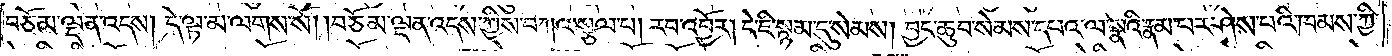བཅོམ་ལྡན་འདས། དེ་ལྟ་མ་ལགས་སོ། །བཅོམ་ལྡན་འདས་ཀྱིས་བཀའ་སྩལ་པ། རབ་འབྱོར། དེ་ཇི་སྙམ་དུ་སེམས། བྱང་ཆུབ་སེམས་དཔའ་ལ་སྣའི་རྣམ་པར་ཤེས་པའི་ཁམས་ཀྱི་
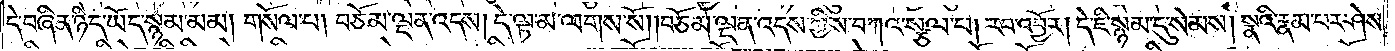དེ་བཞིན་ཉིད་ཡོད་སྙམ་མམ། གསོལ་པ། བཅོམ་ལྡན་འདས། དེ་ལྟ་མ་ལགས་སོ། །བཅོམ་ལྡན་འདས་ཀྱིས་བཀའ་སྩལ་པ། རབ་འབྱོར། དེ་ཇི་སྙམ་དུ་སེམས། སྣའི་རྣམ་པར་ཤེས་
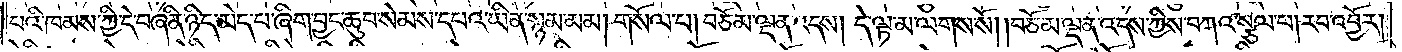པའི་ཁམས་ཀྱི་དེ་བཞིན་ཉིད་མེད་པ་ཞིག་བྱང་ཆུབ་སེམས་དཔའ་ཡིན་སྙམ་མམ། གསོལ་པ། བཅོམ་ལྡན་འདས། དེ་ལྟ་མ་ལགས་སོ། །བཅོམ་ལྡན་འདས་ཀྱིས་བཀའ་སྩལ་པ། རབ་འབྱོར།
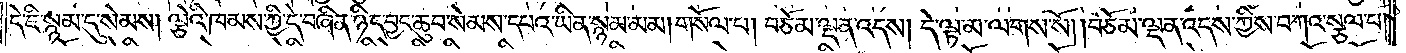དེ་ཇི་སྙམ་དུ་སེམས། ལྕེའི་ཁམས་ཀྱི་དེ་བཞིན་ཉིད་བྱང་ཆུབ་སེམས་དཔའ་ཡིན་སྙམ་མམ། གསོལ་པ། བཅོམ་ལྡན་འདས། དེ་ལྟ་མ་ལགས་སོ། །བཅོམ་ལྡན་འདས་ཀྱིས་བཀའ་སྩལ་པ།
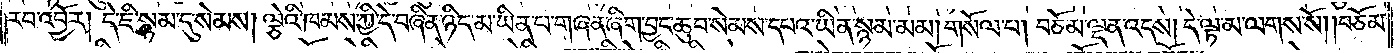རབ་འབྱོར། དེ་ཇི་སྙམ་དུ་སེམས། ལྕེའི་ཁམས་ཀྱི་དེ་བཞིན་ཉིད་མ་ཡིན་པ་གཞན་ཞིག་བྱང་ཆུབ་སེམས་དཔའ་ཡིན་སྙམ་མམ། གསོལ་པ། བཅོམ་ལྡན་འདས། དེ་ལྟ་མ་ལགས་སོ། །བཅོམ་
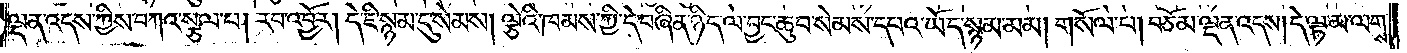ལྡན་འདས་ཀྱིས་བཀའ་སྩལ་པ། རབ་འབྱོར། དེ་ཇི་སྙམ་དུ་སེམས། ལྕེའི་ཁམས་ཀྱི་དེ་བཞིན་ཉིད་ལ་བྱང་ཆུབ་སེམས་དཔའ་ཡོད་སྙམ་མམ། །གསོལ་པ། བཅོམ་ལྡན་འདས། དེ་ལྟ་མ་ལགས་
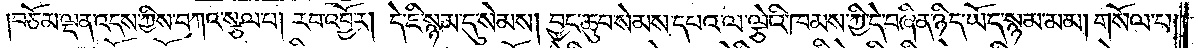བཅོམ་ལྡན་འདས་ཀྱིས་བཀའ་སྩལ་པ། རབ་འབྱོར། དེ་ཇི་སྙམ་དུ་སེམས། བྱང་ཆུབ་སེམས་དཔའ་ལ་ལྕེའི་ཁམས་ཀྱི་དེ་བཞིན་ཉིད་ཡོད་སྙམ་མམ། གསོལ་པ།
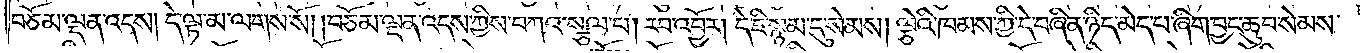བཅོམ་ལྡན་འདས། དེ་ལྟ་མ་ལགས་སོ། །བཅོམ་ལྡན་འདས་ཀྱིས་བཀའ་སྩལ་པ། རབ་འབྱོར། དེ་ཇི་སྙམ་དུ་སེམས། ལྕེའི་ཁམས་ཀྱི་དེ་བཞིན་ཉིད་མེད་པ་ཞིག་བྱང་ཆུབ་སེམས་
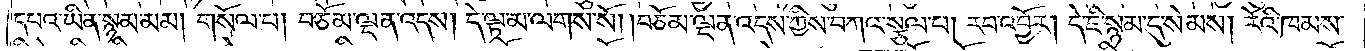དཔའ་ཡིན་སྙམ་མམ། གསོལ་པ། བཅོམ་ལྡན་འདས། དེ་ལྟ་མ་ལགས་སོ། །བཅོམ་ལྡན་འདས་ཀྱིས་བཀའ་སྩལ་པ། རབ་འབྱོར། དེ་ཇི་སྙམ་དུ་སེམས། རོའི་ཁམས་
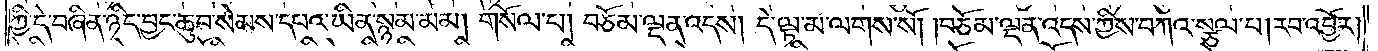ཀྱི་དེ་བཞིན་ཉིད་བྱང་ཆུབ་སེམས་དཔའ་ཡིན་སྙམ་མམ། གསོལ་པ། བཅོམ་ལྡན་འདས། དེ་ལྟ་མ་ལགས་སོ། །བཅོམ་ལྡན་འདས་ཀྱིས་བཀའ་སྩལ་པ། རབ་འབྱོར།
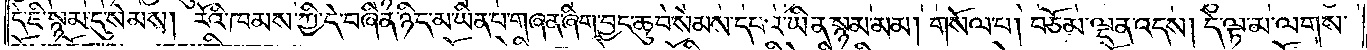དེ་ཇི་སྙམ་དུ་སེམས། རོའི་ཁམས་ཀྱི་དེ་བཞིན་ཉིད་མ་ཡིན་པ་གཞན་ཞིག་བྱང་ཆུབ་སེམས་དཔའ་ཡིན་སྙམ་མམ། གསོལ་པ། བཅོམ་ལྡན་འདས། དེ་ལྟ་མ་ལགས་
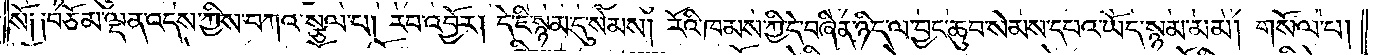སོ༑ ༑བཅོམ་ལྡན་འདས་ཀྱིས་བཀའ་སྩལ་པ། རབ་འབྱོར། དེ་ཇི་སྙམ་དུ་སེམས། རོའི་ཁམས་ཀྱི་དེ་བཞིན་ཉིད་ལ་བྱང་ཆུབ་སེམས་དཔའ་ཡོད་སྙམ་མམ། གསོལ་པ།
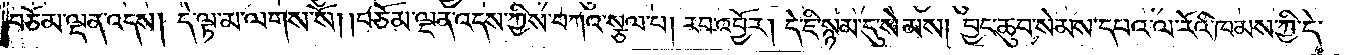བཅོམ་ལྡན་འདས། དེ་ལྟ་མ་ལགས་སོ། །བཅོམ་ལྡན་འདས་ཀྱིས་བཀའ་སྩལ་པ། རབ་འབྱོར། དེ་ཇི་སྙམ་དུ་སེམས། བྱང་ཆུབ་སེམས་དཔའ་ལ་རོའི་ཁམས་ཀྱི་དེ་
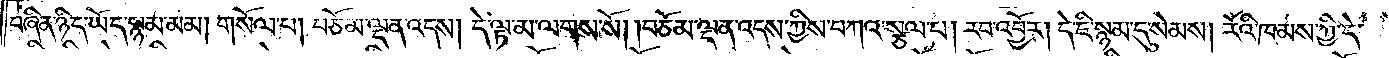བཞིན་ཉིད་ཡོད་སྙམ་མམ། གསོལ་པ། བཅོམ་ལྡན་འདས། དེ་ལྟ་མ་ལགས་སོ། །བཅོམ་ལྡན་འདས་ཀྱིས་བཀའ་སྩལ་པ། རབ་འབྱོར། དེ་ཇི་སྙམ་དུ་སེམས། རོའི་ཁམས་ཀྱི་དེ་
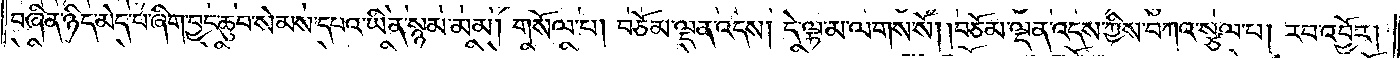བཞིན་ཉིད་མེད་པ་ཞིག་བྱང་ཆུབ་སེམས་དཔའ་ཡིན་སྙམ་མམ། གསོལ་པ། བཅོམ་ལྡན་འདས། དེ་ལྟ་མ་ལགས་སོ། །བཅོམ་ལྡན་འདས་ཀྱིས་བཀའ་སྩལ་པ། རབ་འབྱོར།
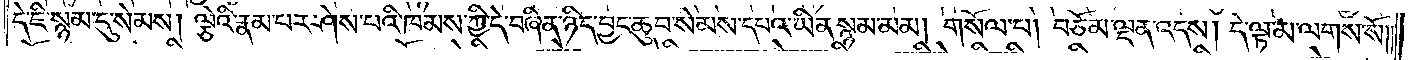དེ་ཇི་སྙམ་དུ་སེམས། ལྕེའི་རྣམ་པར་ཤེས་པའི་ཁམས་ཀྱི་དེ་བཞིན་ཉིད་བྱང་ཆུབ་སེམས་དཔའ་ཡིན་སྙམ་མམ། གསོལ་པ། བཅོམ་ལྡན་འདས། དེ་ལྟ་མ་ལགས་སོ༎
